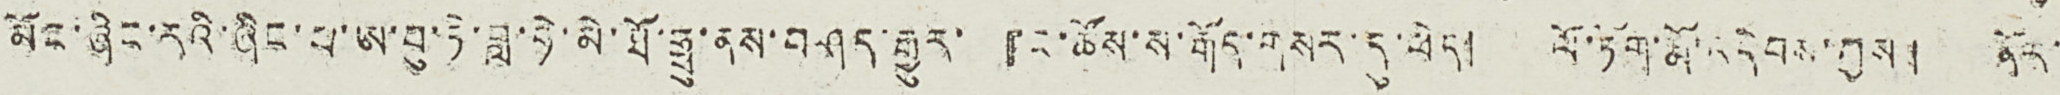མོང་ཞིང་རའི་ཞིང་པ་ཨ་བུ་ཏེ་བླ་ཧེ་མི་ཐོ་ཧྥུ་ནས་བཤད་རྒྱུར་『ང་ཚོས་ས་རྒོད་གསར་དུ་ཕེད། ལོ་ཏོག་རྨོ་འདེབས་བྱས། ནོར་
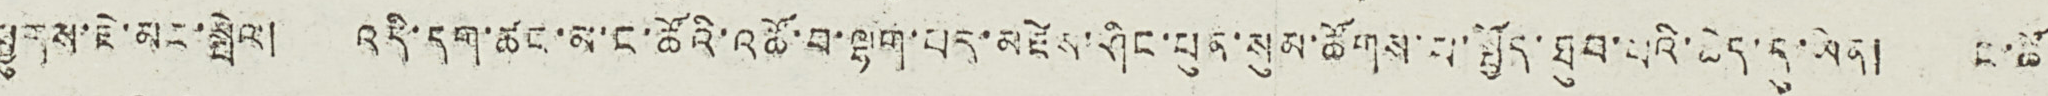ཕྱུགས་ཇེ་མང་སྤེལ། འདི་དག་ཚང་མ་ང་ཚོའི་འཚོ་བ་ལྷག་པར་མཛེས་ཤིང་ཕུན་སུམ་ཚོགས་པ་སྤྱོད་ཐུབ་པའི་ཆེད་དུ་ཡིན། ང་ཚོ་
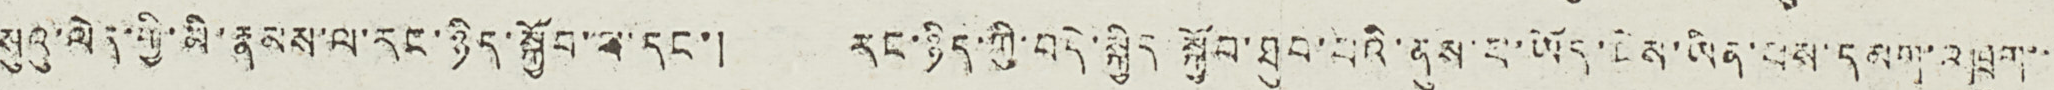སུའུ་ལེན་གྱི་མི་རྣམས་ལ་རང་ཉིད་སྐྱོབ་པ་དང་། རང་ཉིད་ཀྱི་བདེ་སྐྱིད་སྐྱོབ་ཐུབ་པའི་ནུས་པ་ཡོད་ངེས་ཡིན་པས་དམག་འཁྲུག་་་
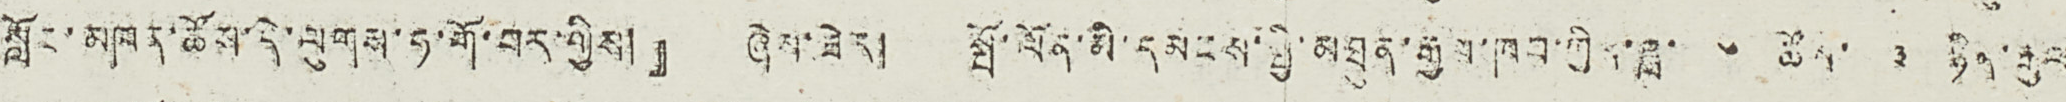སློང་མཁན་ཚོས་དེ་ལུགས་ཧ་གོ་བར་གྱིས།』 ཞེས་ཟེར། སྤོ་ལོན་མི་དམངས་སྤྱི་མཐུན་རྒྱལ་ཁབ་ཀྱིས་ཟླ་ ༦ ཚེས་ ༣ ཉིན་རྒུལ
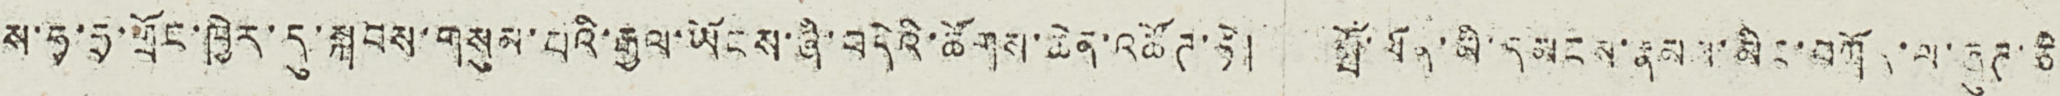ས་ཧྭ་ཧྲ་གྲོང་ཁྱེར་དུ་སྐབས་གསུམ་པའི་རྒྱལ་ཡོངས་ཞི་བདེའི་ཚོགས་ཆེན་འཚོཊ་ཏེ། སྤོ་ལོན་མི་དམངས་རྣམས་མིང་བཀོད་ལ་ཞུཊ་ཅི་
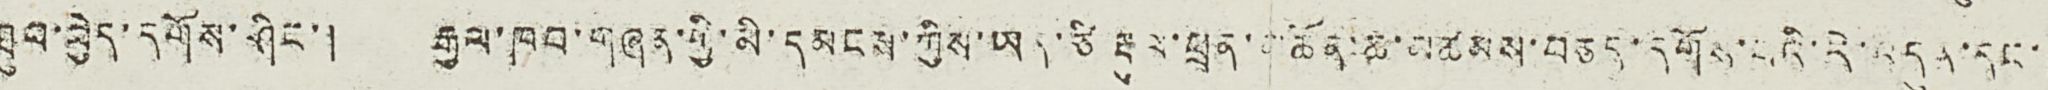ཐུབ་བྱེད་དགོས་ཤིང་། རྒྱལ་ཁབ་གཞན་གྱི་མི་དམངས་ཀྱིས་ཡན་ཙི་རྡུལ་ཕྲན་མཚོན་ཆ་མཚམས་བཅད་དགོས་པའི་རེ་འདུན་དང་།
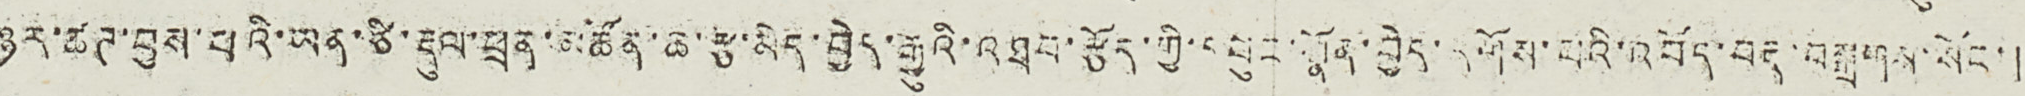ཉར་ཚཊ་བྱས་པའི་ཡན་ཙི་རྡུལ་ཕྲན་མཚོན་ཆ་རྩ་མེད་བྱེད་རྒྱུའི་འཐབ་རྩོད་ཀྱི་དཕུང་སྣོན་བྱེད་དགོས་པའི་འབོད་བརྡ་བསྒྲགས་སོང་།
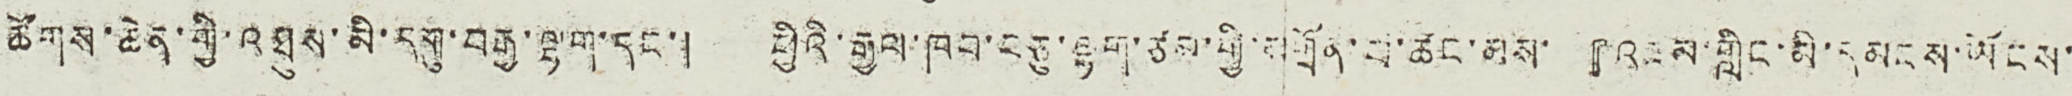ཚོགས་ཆེན་གྱི་འཐུས་མི་དགུ་བརྒྱ་ལྷག་དང་། ཕྱིའི་རྒྱལ་ཁབ་བཅུ་ལྷག་ཙམ་གྱི་མགྲོན་པ་ཚང་མས་『འཛམ་གླིང་མི་དམངས་ཡོངས་
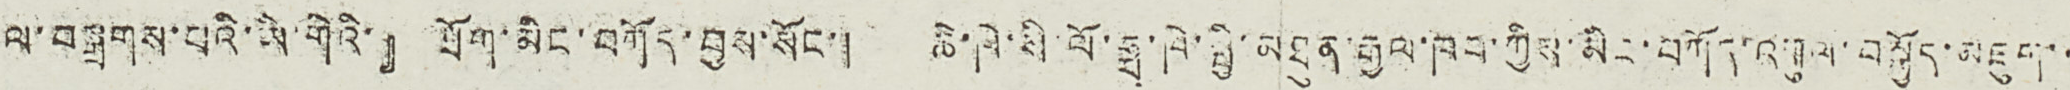ལ་བསྒྲགས་པའི་ཡི་གེའི་』 ཐོག་མིང་བཀོད་བྱས་སོང་། ཆེ་ཁེ་སི་ལོ་ཧྥ་ཁེ་སྤྱི་མཐུན་རྒྱལ་ཁབ་ཀྱིས་མིང་བཀོད་འགུལ་བསྐྱོད་མཇུག་་
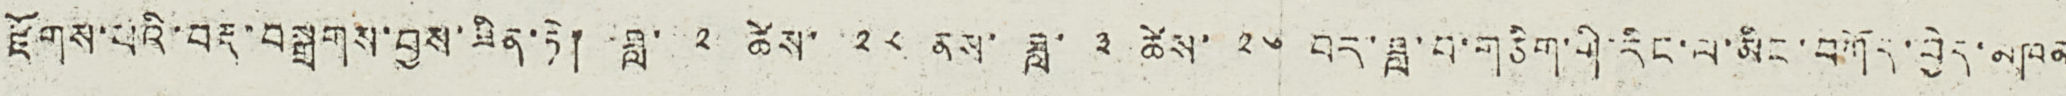རྫོགས་པའི་བརྡ་བསྒྲགས་བྱས་ཟིན་ཏེ། ཟླ་ ༢ ཚེས་ ༢༨ ནས་ཟླ་ ༣ ཚེས་ ༢༦ བར་ཟླ་བ་གཅིག་གི་རིང་ལ་མིང་བཀོད་བྱེད་མཁན
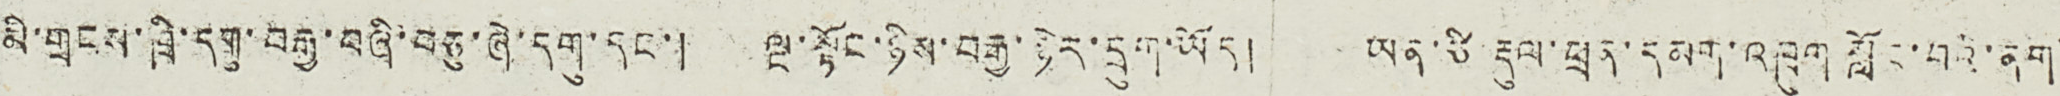མི་གྲངས་ཁྲི་དགུ་བརྒྱ་བཞི་བཅུ་ཞེ་དགུ་དང་། ལྔ་སྟོང་ཉིས་བརྒྱ་ཉེར་དྲུག་ཡོད། ཡན་ཙི རྡུལ་ཕྲན་དམག་འཁྲུག་སློང་བའི་ནག་
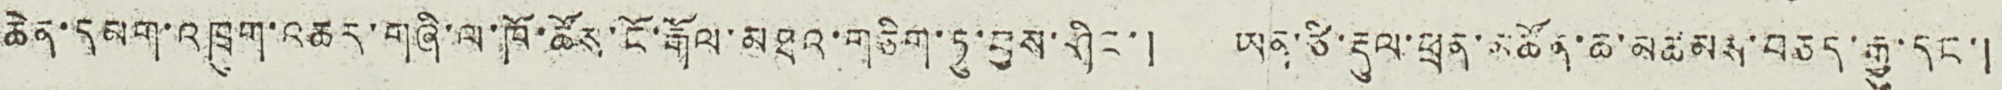ཆེན་དམག་འཁྲུག་འཆར་གཞི་ལ་ཁོ་ཚོས་ངོ་རྒོལ་མཐའ་གཅིག་ཏུ་བྱས་ཤིང་། ཡན་ཙི་རྡུལ་ཕྲན་མཚོན་ཆ་མཚམས་བཅད་རྒྱུ་དང་།
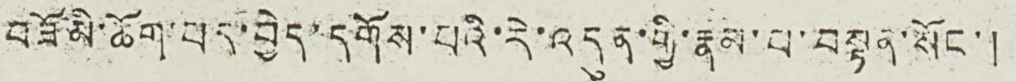བཟོ་མི་ཆོག་པར་བྱེད་དགོས་པའི་རེ་འདུན་གྱི་རྣམ་པ་བསྟན་སོང་།
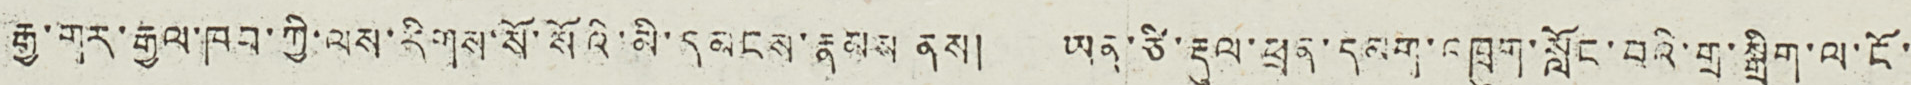རྒྱ་གར་རྒྱལ་ཁབ་ཀྱི་ལས་རིགས་སོ་སོའི་མི་དམངས་རྣམས ནས། ཡན་ཙི་རྡུལ་ཕྲན་དམག་འཁྲུག་སློང་བའི་གྲ་སྒྲིག་ལ་ངོ་་
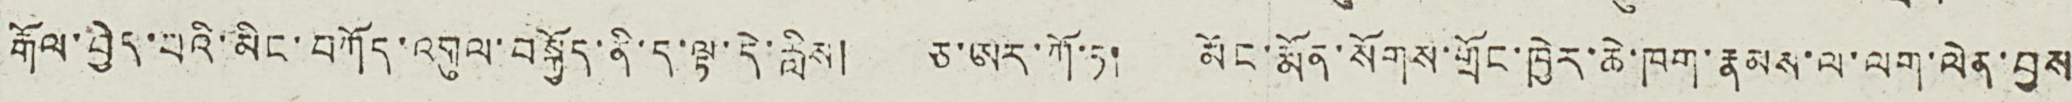རྒོལ་བྱེད་པའི་མིང་བཀོད་འགུལ་བསྐྱོད་ནི་ད་ལྟ་དེ་རླིས། ཅ་ཨར་ཀོ་ཏ། མོང་རྨོན་སོགས་གྲོང་ཁྱེར་ཆེ་ཁག་རྣམས་ལ་ལག་ལེན་བྱས
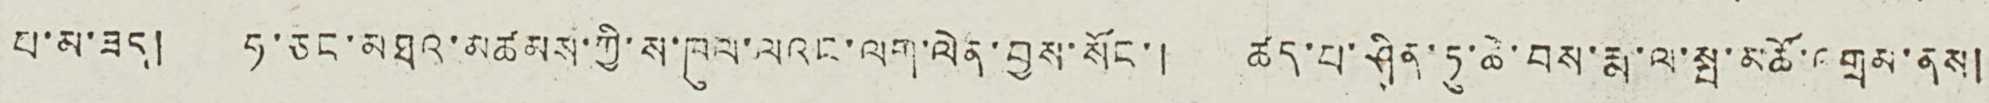པ་མ་ཟད། ཧ་ཅང་མཐའ་མཚམས་ཀྱི་ས་ཁུལ་ལའང་ལག་ལེན་བྱས་སོང་། ཚད་པ་ཤིན་ཏུ་ཆེ་བས་རྨ་ལ་སྤ་མཚོ་འགྲམ་ནས།
